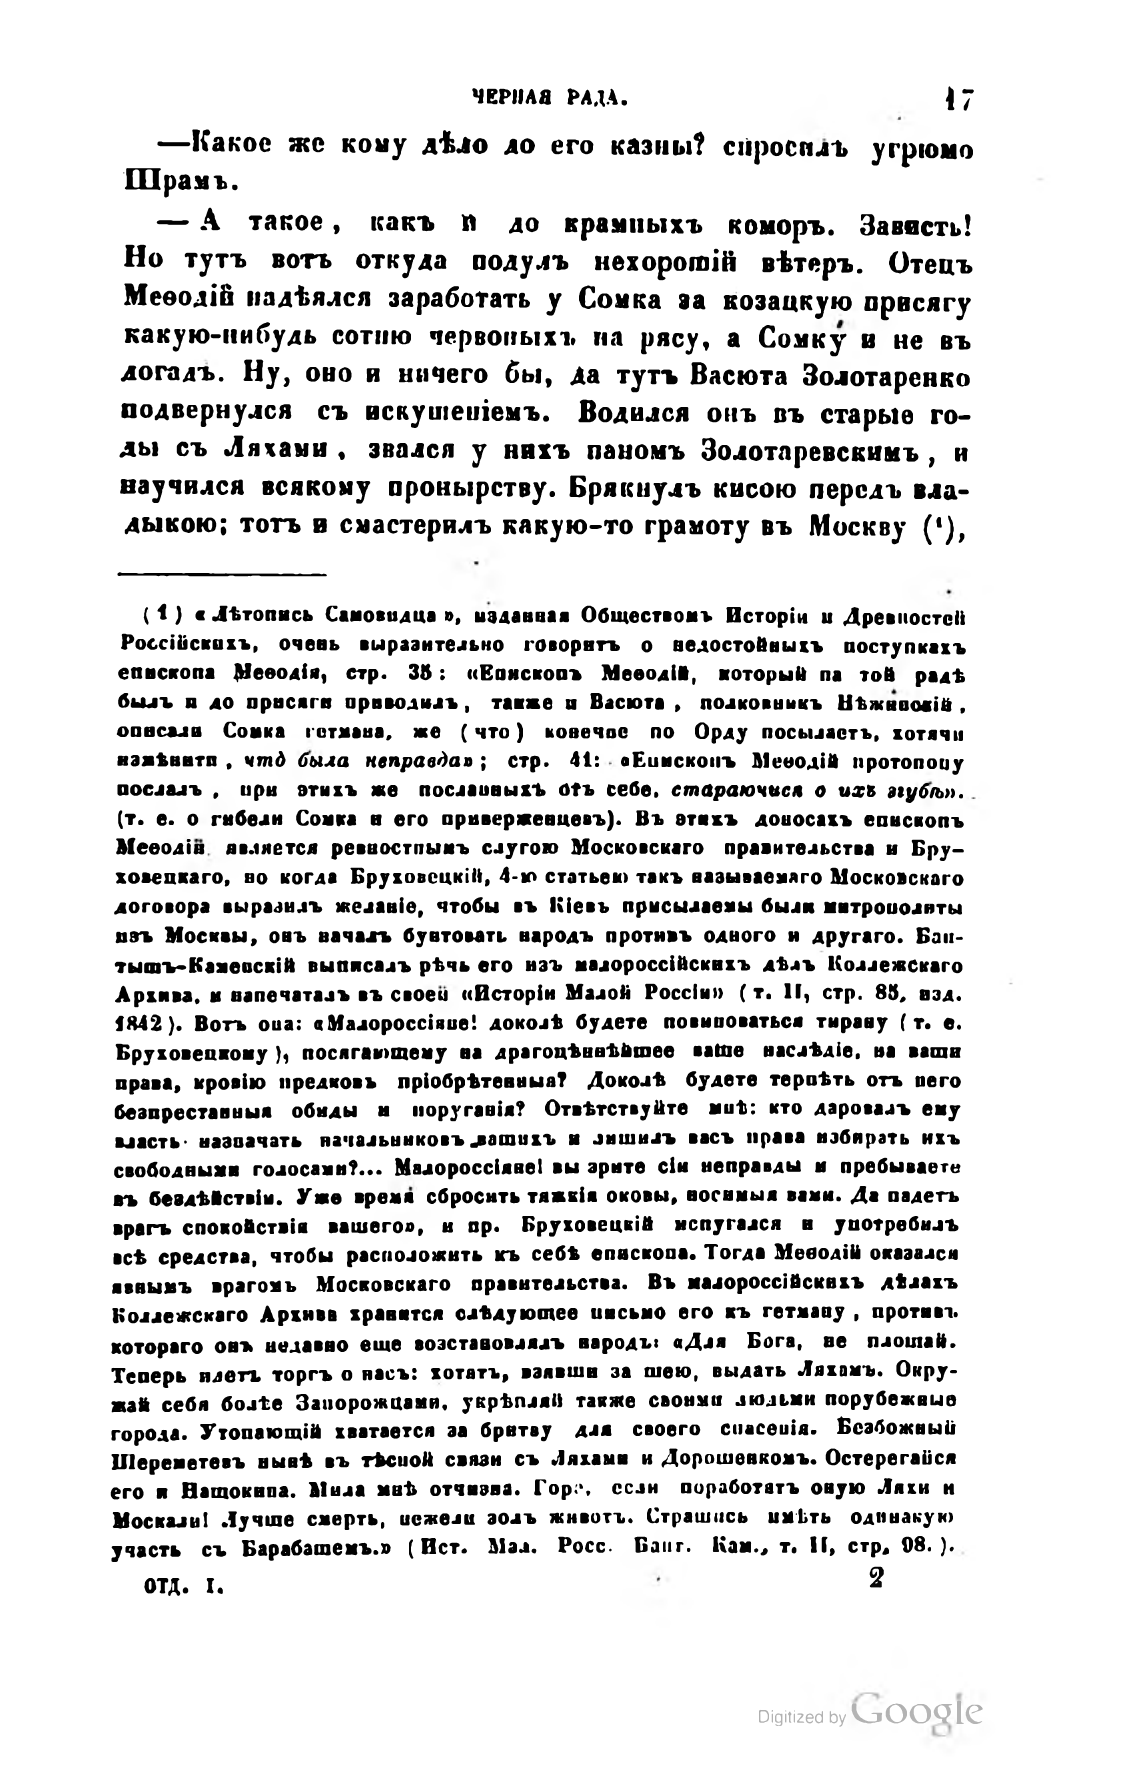ЧЕРНАЯ РАДА.                           17
— Какое же кому дѣло до его казны? спросилъ угрюмо Шрамъ.
— А такое, какъ и до крамныхъ коморъ. Зависть! Но тутъ вотъ откуда подулъ нехорошій вѣтеръ. Отецъ Меѳодій надѣялся заработать у Сомка за козацкую присягу какую-нибудь сотню червоныхъ на рясу, а Сомку и не въ догадъ. Ну, оно и ничего бы, да тутъ Васюта Золотаренко подвернулся съ искушеніемъ. Водился онъ въ старые годы съ Ляхами, звался у нихъ паномъ Золотаревскимъ, и научился всякому пронырству. Брякнулъ кисою передъ владыкою; тотъ и смастерилъ какую-то грамоту въ Москву ( 1 ),
—
( 1 ) «Лѣтопись Самовидца», изданная Обществомъ Исторіи и Древностей Россійскихъ, очень выразительно говоритъ о недостойныхъ поступкахъ епископа Меѳодія, стр. 35: «Епископъ Меѳодій, который на той радѣ былъ и до присяги приводилъ, также и Васюта, полковникъ Нѣжинскій, описали Сомка гетмана, же (что) конечне по Орду посылаетъ, хотячи измѣнити, что была неправда»; стр. 41: «Епископъ Меѳодій протопопу послалъ, при этихъ же посланныхѣ отъ себе, стараючися о ихъ згубѣ». (т. е. о гибели Сомка и его приверженцевъ). Въ этихъ доносахъ епископъ Меѳодій является ревностнымъ слугою Московскаго правительства и Бруховецкаго, но когда Бруховецкій, 4-ю статьею такъ называемаго Московскаго договора выразилъ желаніе, чтобы въ Кіевъ присылаемы были митрополиты изъ Москвы, онъ началъ бунтовать народъ противъ одного и другаго. Бантышъ-Каменскій выписалъ рѣчь его изъ малороссійскихъ дѣлъ Коллежскаго Архива, и напечаталъ въ своей «Исторіи Малой Россіи» (т. II, стр. 85, изд. 1842). Вотъ она: «Малороссіяне! доколѣ будете повиноваться тирану (т.е. Бруховецкому), посягающему на драгоцѣннѣйшее ваше наслѣдіе, на ваши права, кровію предковъ пріобрѣтенныя? Доколѣ будете терпѣть отъ него безпрестанный обиды и поруганія? Отвѣтствуйте мнѣ: кто даровалъ ему власть назначать начальниковъ вашихъ и лишилъ васъ права избирать ихъ свободными голосами?... Малороссіяне! вы зрите сіи неправды и пребываете въ бездѣйствіи. Уже время сбросить тяжкія оковы, носимыя вами. Да падетъ врагъ спокойствій вашего», и пр. Бруховецкій испугался и употребилъ всѣ средства, чтобы расположить къ себѣ епископа. Тогда Меѳодій оказался явнымъ врагомъ Московскаго правительства. Въ малороссійскихъ дѣлахъ Коллежскаго Архива хранится слѣдующее письмо его къ гетману, противъ котораго онъ недавно еще возстановлялъ народъ: «Для Бога, не плошай. Теперь идетъ торгъ о насъ: хотятъ, взявши за шею, выдать Ляхамъ. Окружай себя болѣе Запорожцами, укрѣпляй также своими людьми порубежные города. Утопающій хватается за бритву для своего спасенія. Безбожный Шереметевъ нынѣ въ тѣсной связи съ Ляхами и Дорошенкомъ. Остерегайся его и Нащокина. Мила мнѣ отчизна. Горе, если поработятъ оную Ляхи и Москали! Лучше смерть, нежели золъ животъ. Страшись имѣть одинакую участь съ Барабашемъ.» (Ист. Мал. Росс. Банг. Кам., т. II, стр. 98.).
ОТД. I.                                                         2
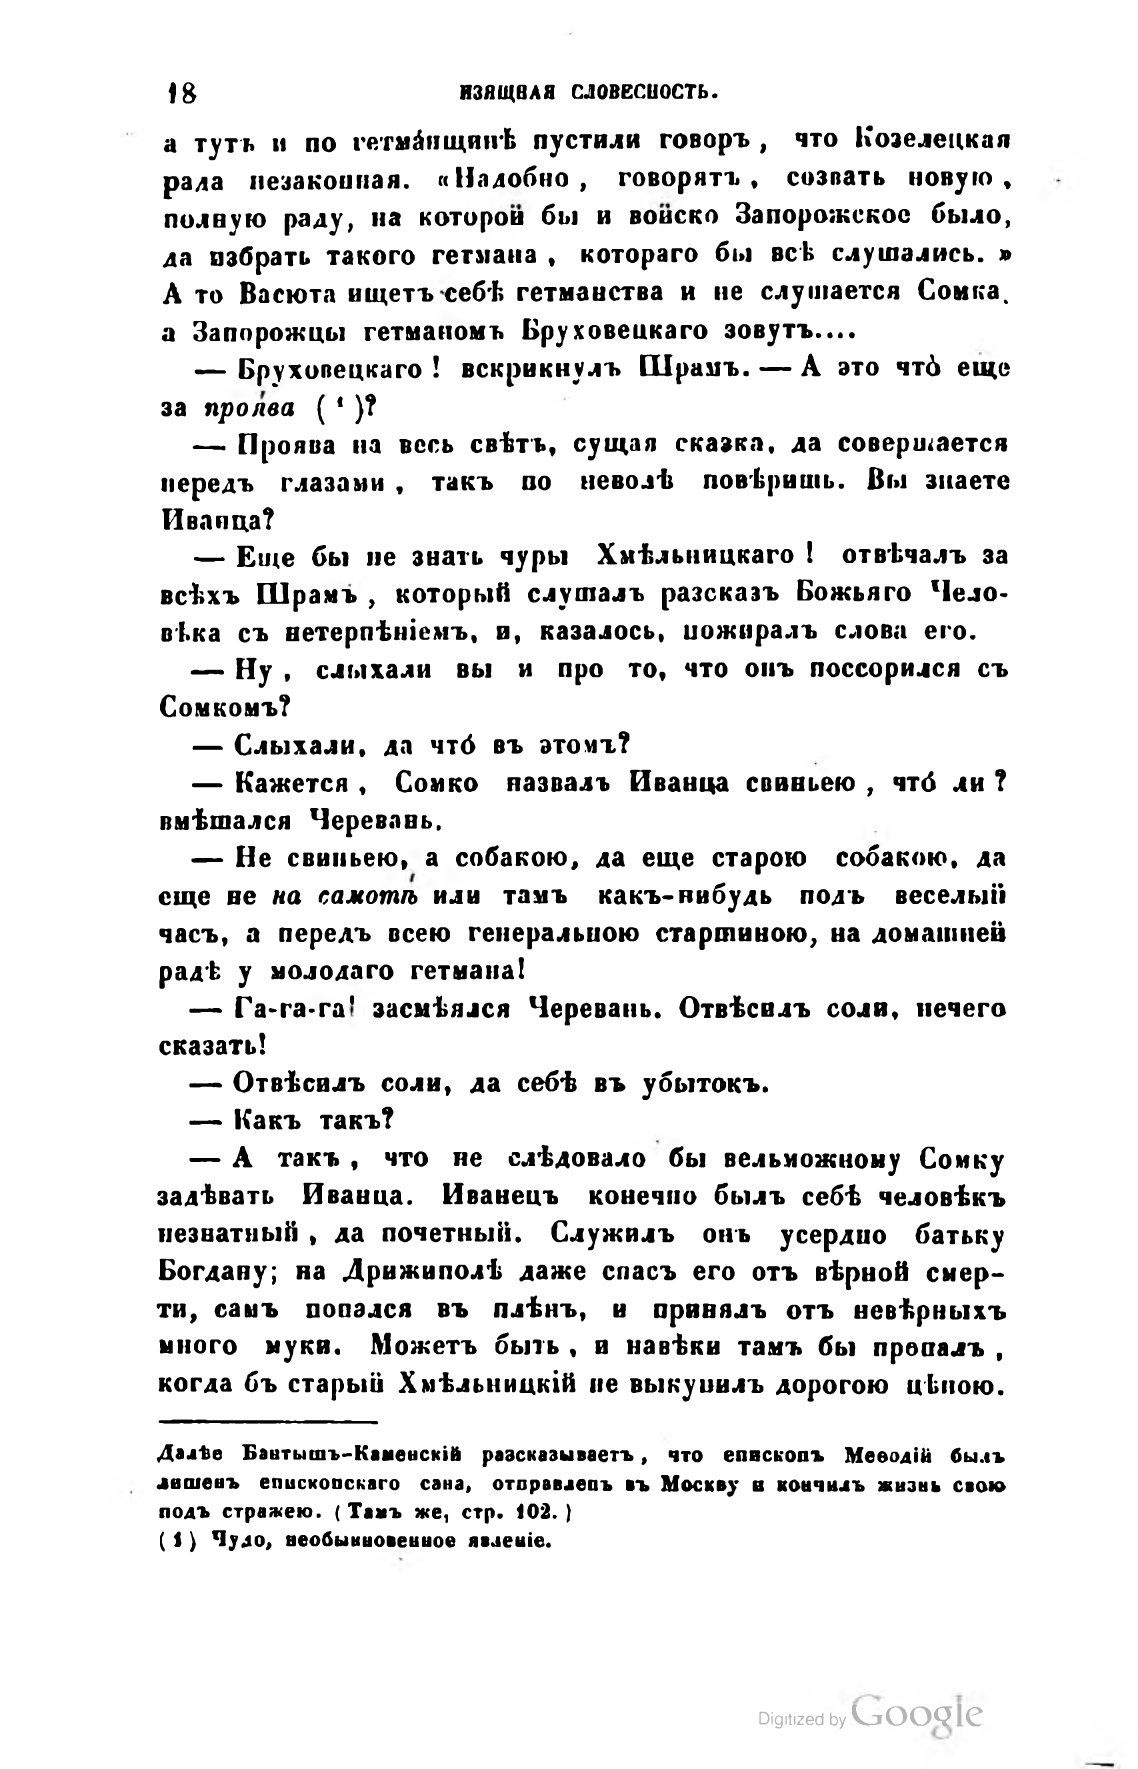18                       ИЗЯЩНАЯ СЛОВЕСНОСТЬ.
а тутъ и по гетманщинѣ пустили говоръ, что Козелецкая рада незаконная. «Надобно, говорятъ, созвать новую, полную раду, на которой бы и войско Запорожское было, да избрать такого гетмана, котораго бы всѣ слушались.» А то Васюта ищетъ себѣ гетманства и не слушается Сомка, а Запорожцы гетманомъ Бруховецкаго зовутъ...
— Бруховецкаго! вскрикнулъ Шрамъ. — А это что еще за проява ( 1 )?
— Проява на весь свѣтъ, сущая сказка, да совершается передъ глазами, такъ по неволѣ повѣришь. Вы знаете Иванца?
— Еще бы не знать чуры Хмѣльницкаго! отвѣчалъ за всѣхъ Шрамъ, который слушалъ разсказъ Божьяго Человѣка съ нетерпѣніемъ, и, казалось, пожиралъ слова его.
— Ну, слыхали вы и про то, что онъ поссорился съ Сомкомъ?
— Слыхали, да что въ этомъ?
— Кажется, Сомко назвалъ Иванца свиньею, что ли? вмѣшался Черевань.
— Не свиньею, а собакою, да еще старою собакою, да еще не на самомъ или тамъ какъ-нибудь подъ веселый часъ, а передъ всею генеральною старшиною, на домашней радѣ у молодаго гетмана!
— Га-га-га! засмѣялся Черевань. Отвѣсилъ соли, нечего сказать!
— Отвѣсилъ соли, да себѣ въ убытокъ.
— Какъ такъ?
— А такъ, что не слѣдовало бы вельможному Сомку задѣвать Иванца. Иванецъ конечно былъ себѣ человѣкъ незнатный, да почетный. Служилъ онъ усердно батьку Богдану; на Дрижиполѣ даже спасъ его отъ вѣрной смерти, самъ попался въ плѣнъ, и принялъ отъ невѣрныхъ много муки. Можетъ быть, и навѣки тамъ бы пропалъ, когда бъ старый Хмѣльницкій не выкунилъ дорогою цѣною.
—
Далѣе Бантышъ-Каменскій разсказываетъ, что епископъ Меѳодій былъ лишенъ епископскаго сана, отправленъ въ Москву и кончилъ жизнь свою подъ стражею. (Тамъ же, стр. 102.)
( 1 ) Чудо, необыкновенное явленіе.
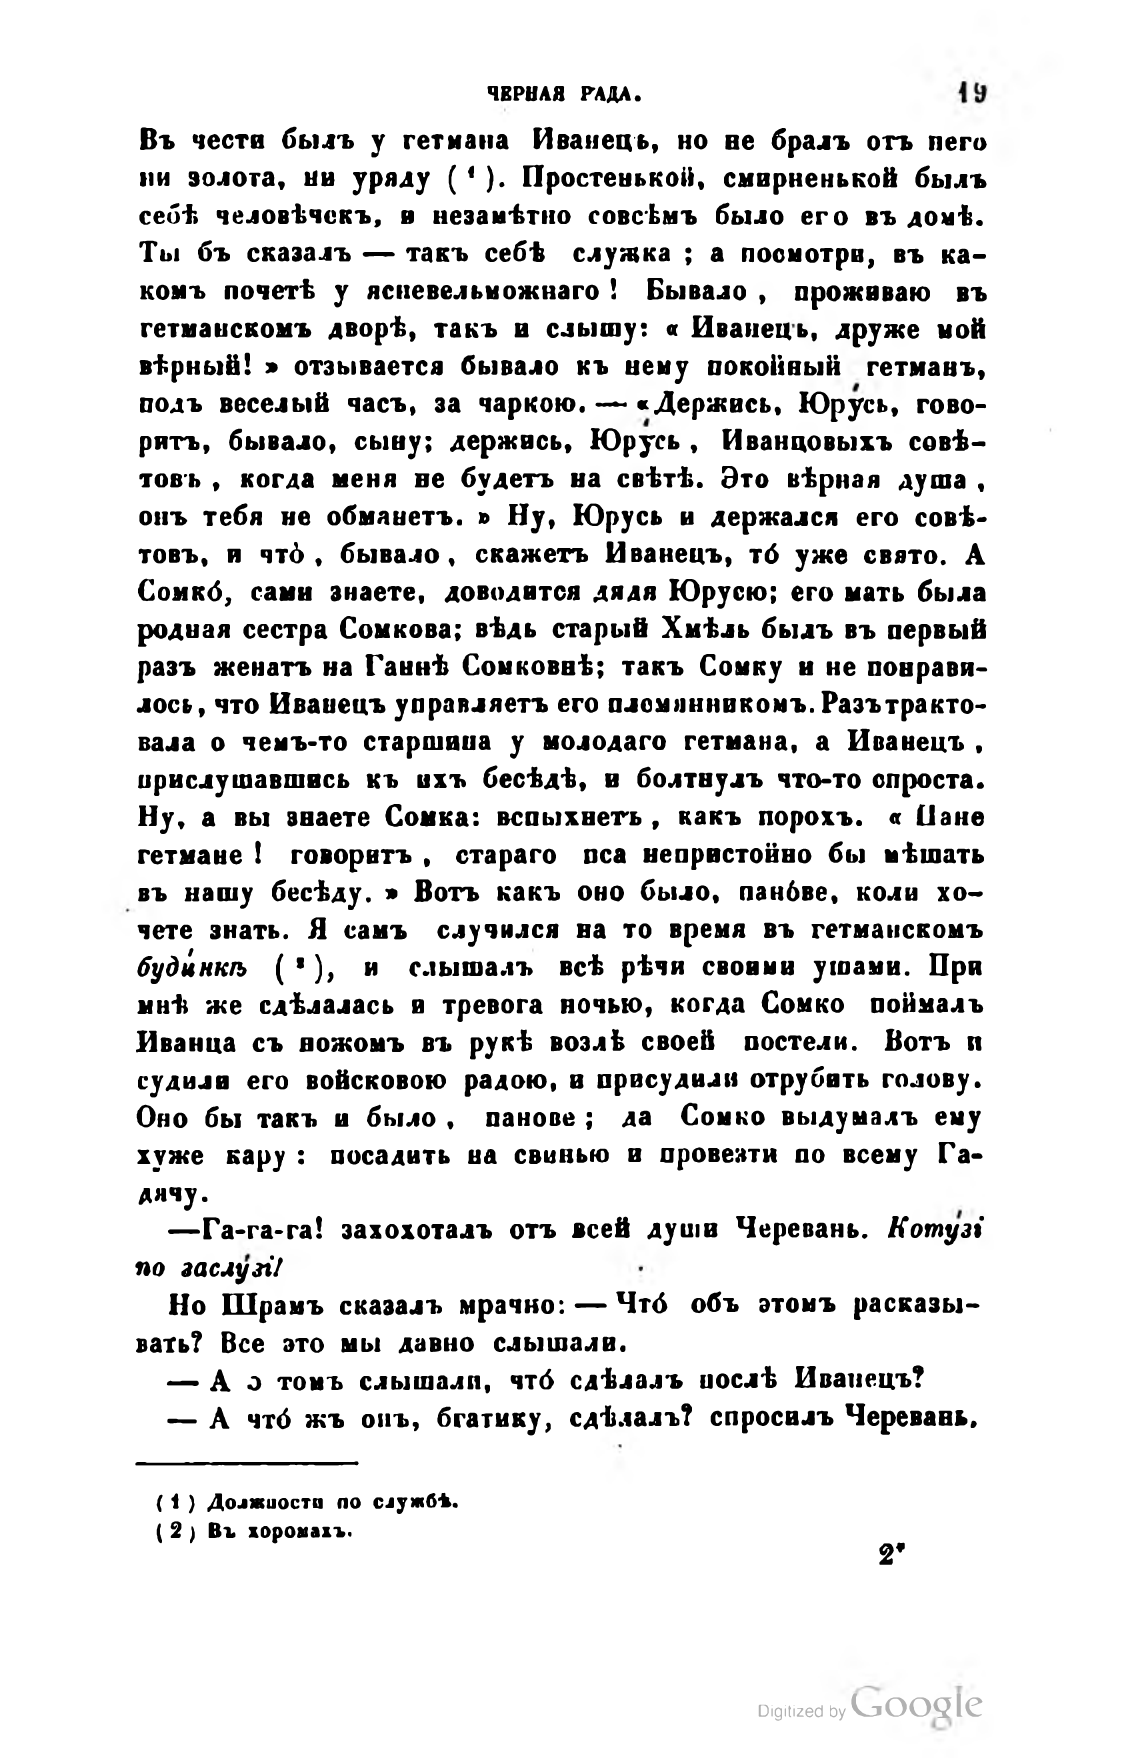ЧЕРНАЯ РАДА.                   19
Въ чести былъ у гетмана Иванецъ, но не бралъ отъ него ни золота, ни уряду ( 1 ). Простенькой, смирненькой былъ себѣ человѣчекъ, и незамѣтно совсѣмъ было его въ домѣ. Ты бъ сказалъ — такъ себѣ служка; а посмотри, въ какомъ почетѣ у ясневельможнаго! Бывало, проживаю въ гетманскомъ дворѣ, такъ и слышу: «Иванець, друже мой вѣрный!» отзывается бывало къ нему покойный гетманъ, подъ веселый часъ, за чаркою. — «Держись, Юрусь, говоритъ, бывало, сыну; держись, Юрусь, Иванцовыхъ совѣтовъ, когда меня не будетъ на свѣтѣ. Это вѣрная душа, онъ тебя не обманетъ.» Ну, Юрусь и держался его совѣтовъ, и что, бывало, скажетъ Иванецъ, то уже свято. А Сомко, сами знаете, доводится дядя Юрусю; его мать была родная сестра Сомкова; вѣдь старый Хмѣль былъ въ первый разъ женатъ на Ганнѣ Сомковнѣ; такъ Сомку и не понравилось, что Иванецъ управляетъ его племянникомъ. Разъ трактовала о чемъ-то старшина у молодаго гетмана, а Иванецъ, прислушавшись къ ихъ бесѣдѣ, и болтнулъ что-то спроста. Ну, а вы знаете Сомка: вспыхнетъ, какъ порохъ. «Пане гетмане! говоритъ, стараго пса непристойно бы мѣшать въ нашу бесѣду.» Вотъ какъ оно было, панове, коли хочете знать. Я самъ случился на то время въ гетманскомъ будинкѣ ( 2 ), и слышалъ всѣ рѣчи своими ушами. При мнѣ же сдѣлалась и тревога ночью, когда Сомко поймалъ Иванца съ ножомъ въ рукѣ возлѣ своей постели. Вотъ и судили его войсковою радою, и присудили отрубить голову. Оно бы такъ и было, панове; да Сомко выдумалъ ему хуже кару : посадить на свинью и провезти по всему Гадячу.
— Га-га-га! захохоталъ отъ всей души Черевань. Котузі по заслузі!
Но Шрамъ сказалъ мрачно: — Что объ этомъ расказывать? Все это мы давно слышали.
— А о томъ слышали, что сдѣлалъ послѣ Иванецъ?
— А что жъ онъ, бгатику, сдѣлалъ? спросилъ Черевань.
—
( 1 ) Должности по службѣ.
( 2 ) Въ хоромахъ.
2*